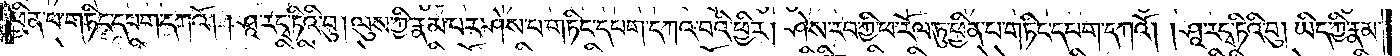ཕྱིན་པ་གཏིང་དཔག་དཀའོ། །ཤཱ་རདྭ་ཏིའི་བུ། ལུས་ཀྱི་རྣམ་པར་ཤེས་པ་གཏིང་དཔག་དཀའ་བའི་ཕྱིར། ཤེས་རབ་ཀྱི་ཕ་རོལ་ཏུ་ཕྱིན་པ་གཏིང་དཔག་དཀའོ། །ཤཱ་རདྭ་ཏིའི་བུ། ཡིད་ཀྱི་རྣམ་
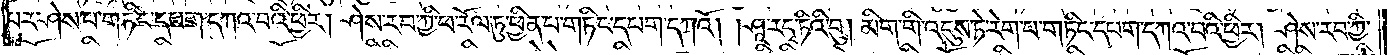པར་ཤེས་པ་གཏིང་དཔག་དཀའ་བའི་ཕྱིར། ཤེས་རབ་ཀྱི་ཕ་རོལ་ཏུ་ཕྱིན་པ་གཏིང་དཔག་དཀའོ། །ཤཱ་རདྭ་ཏིའི་བུ། མིག་གི་འདུས་ཏེ་རེག་པ་གཏིང་དཔག་དཀའ་བའི་ཕྱིར། ཤེས་རབ་ཀྱི་
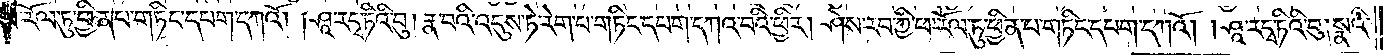ཕ་རོལ་ཏུ་ཕྱིན་པ་གཏིང་དཔག་དཀའོ། །ཤཱ་རདྭ་ཏིའི་བུ། རྣ་བའི་འདུས་ཏེ་རེག་པ་གཏིང་དཔག་དཀའ་བའི་ཕྱིར། ཤེས་རབ་ཀྱི་ཕ་རོལ་ཏུ་ཕྱིན་པ་གཏིང་དཔག་དཀའོ། །ཤཱ་རདྭ་ཏིའི་བུ། སྣའི་
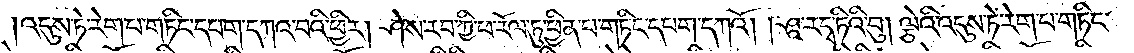འདུས་ཏེ་རེག་པ་གཏིང་དཔག་དཀའ་བའི་ཕྱིར། ཤེས་རབ་ཀྱི་ཕ་རོལ་ཏུ་ཕྱིན་པ་གཏིང་དཔག་དཀའོ། །ཤཱ་རདྭ་ཏིའི་བུ། ལྕེའི་འདུས་ཏེ་རེག་པ་གཏིང་
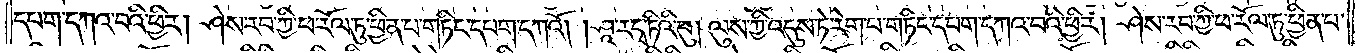དཔག་དཀའ་བའི་ཕྱིར། ཤེས་རབ་ཀྱི་ཕ་རོལ་ཏུ་ཕྱིན་པ་གཏིང་དཔག་དཀའོ། །ཤཱ་རདྭ་ཏིའི་བུ། ལུས་ཀྱི་འདུས་ཏེ་རེག་པ་གཏིང་དཔག་དཀའ་བའི་ཕྱིར། ཤེས་རབ་ཀྱི་ཕ་རོལ་ཏུ་ཕྱིན་པ་
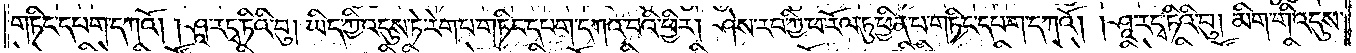གཏིང་དཔག་དཀའོ། །ཤཱ་རདྭ་ཏིའི་བུ། ཡིད་ཀྱི་འདུས་ཏེ་རེག་པ་གཏིང་དཔག་དཀའ་བའི་ཕྱིར། ཤེས་རབ་ཀྱི་ཕ་རོལ་ཏུ་ཕྱིན་པ་གཏིང་དཔག་དཀའོ། །ཤཱ་རདྭ་ཏིའི་བུ། མིག་གི་འདུས་
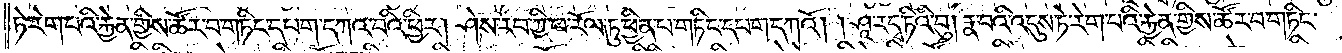ཏེ་རེག་པའི་རྐྱེན་གྱིས་ཚོར་བ་གཏིང་དཔག་དཀའ་བའི་ཕྱིར། ཤེས་རབ་ཀྱི་ཕ་རོལ་ཏུ་ཕྱིན་པ་གཏིང་དཔག་དཀའོ། །ཤཱ་རདྭ་ཏིའི་བུ། རྣ་བའི་འདུས་ཏེ་རེག་པའི་རྐྱེན་གྱིས་ཚོར་བ་གཏིང་
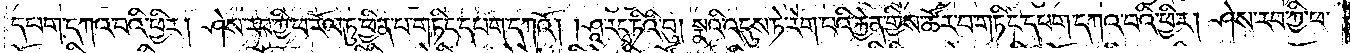དཔག་དཀའ་བའི་ཕྱིར། །ཤེས་རབ་ཀྱི་ཕ་རོལ་ཏུ་ཕྱིན་པ་གཏིང་དཔག་དཀའོ། །ཤཱ་རདྭ་ཏིའི་བུ། སྣའི་འདུས་ཏེ་རེག་པའི་རྐྱེན་གྱིས་ཚོར་བ་གཏིང་དཔག་དཀའ་བའི་ཕྱིར། ཤེས་རབ་ཀྱི་ཕ་
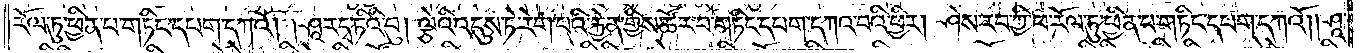རོལ་ཏུ་ཕྱིན་པ་གཏིང་དཔག་དཀའོ། །ཤཱ་རདྭ་ཏིའི་བུ། ལྕེའི་འདུས་ཏེ་རེག་པའི་རྐྱེན་གྱིས་ཚོར་བ་གཏིང་དཔག་དཀའ་བའི་ཕྱིར། ཤེས་རབ་ཀྱི་ཕ་རོལ་ཏུ་ཕྱིན་པ་གཏིང་དཔག་དཀའོ། །ཤཱ་
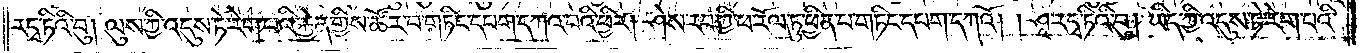རདྭ་ཏིའི་བུ། ལུས་ཀྱི་འདུས་ཏེ་རེག་པའི་རྐྱེན་གྱིས་ཚོར་བ་གཏིང་དཔག་དཀའ་བའི་ཕྱིར། ཤེས་རབ་ཀྱི་ཕ་རོལ་ཏུ་ཕྱིན་པ་གཏིང་དཔག་དཀའོ། །ཤཱ་རདྭ་ཏིའི་བུ། ཡིད་ཀྱི་འདུས་ཏེ་རེག་པའི་
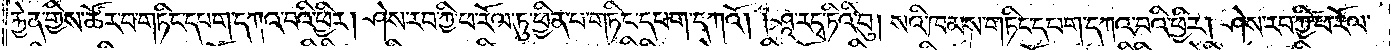རྐྱེན་གྱིས་ཚོར་བ་གཏིང་དཔག་དཀའ་བའི་ཕྱིར། ཤེས་རབ་ཀྱི་ཕ་རོལ་ཏུ་ཕྱིན་པ་གཏིང་དཔག་དཀའོ། །ཤཱ་རདྭ་ཏིའི་བུ། སའི་ཁམས་གཏིང་དཔག་དཀའ་བའི་ཕྱིར། ཤེས་རབ་ཀྱི་ཕ་རོལ་
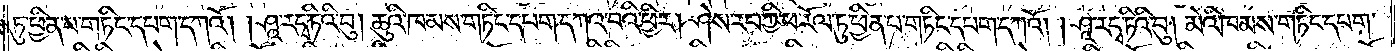ཏུ་ཕྱིན་པ་གཏིང་དཔག་དཀའོ། །ཤཱ་རདྭ་ཏིའི་བུ། ཆུའི་ཁམས་གཏིང་དཔག་དཀའ་བའི་ཕྱིར། ཤེས་རབ་ཀྱི་ཕ་རོལ་ཏུ་ཕྱིན་པ་གཏིང་དཔག་དཀའོ། །ཤཱ་རདྭ་ཏིའི་བུ། མེའི་ཁམས་གཏིང་དཔག་
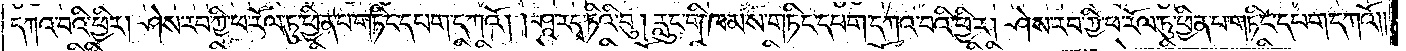དཀའ་བའི་ཕྱིར། ཤེས་རབ་ཀྱི་ཕ་རོལ་ཏུ་ཕྱིན་པ་གཏིང་དཔག་དཀའོ། །ཤཱ་རདྭ་ཏིའི་བུ། རླུང་གི་ཁམས་གཏིང་དཔག་དཀའ་བའི་ཕྱིར། ཤེས་རབ་ཀྱི་ཕ་རོལ་ཏུ་ཕྱིན་པ་གཏིང་དཔག་དཀའོ། །
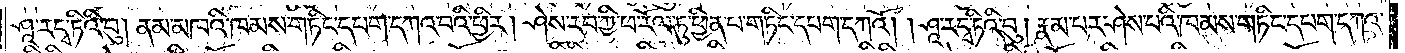ཤཱ་རདྭ་ཏིའི་བུ། ནམ་མཁའི་ཁམས་གཏིང་དཔག་དཀའ་བའི་ཕྱིར། ཤེས་རབ་ཀྱི་ཕ་རོལ་ཏུ་ཕྱིན་པ་གཏིང་དཔག་དཀའོ། །ཤཱ་ར་དྭ་ཏིའི་བུ། རྣམ་པར་ཤེས་པའི་ཁམས་གཏིང་དཔག་དཀའ་
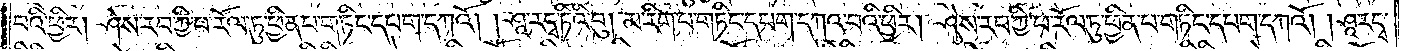བའི་ཕྱིར། ཤེས་རབ་ཀྱི་ཕ་རོལ་ཏུ་ཕྱིན་པ་གཏིང་དཔག་དཀའོ། །ཤཱ་རདྭ་ཏིའི་བུ། མ་རིག་པ་གཏིང་དཔག་དཀའ་བའི་ཕྱིར། ཤེས་རབ་ཀྱི་ཕ་རོལ་ཏུ་ཕྱིན་པ་གཏིང་དཔག་དཀའོ། །ཤཱ་རདྭ་
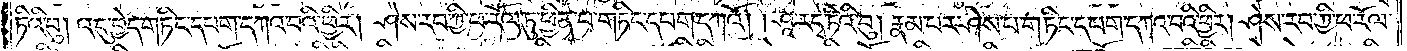ཏིའི་བུ། འདུ་བྱེད་གཏིང་དཔག་དཀའ་བའི་ཕྱིར། ཤེས་རབ་ཀྱི་ཕ་རོལ་ཏུ་ཕྱིན་པ་གཏིང་དཔག་དཀའོ། །ཤཱ་རདྭ་ཏིའི་བུ། རྣམ་པར་ཤེས་པ་གཏིང་དཔག་དཀའ་བའི་ཕྱིར། ཤེས་རབ་ཀྱི་ཕ་རོལ་
